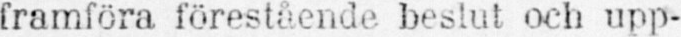framföra förestående bestut och upp-
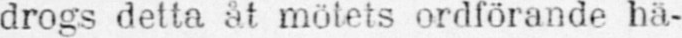drogs detta åt mötets ordförande hä-
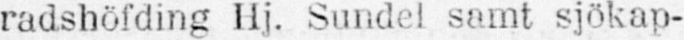radshöfding Hj, Sundel samt sjökap-
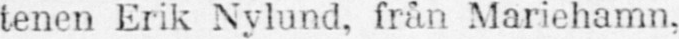tenen Erik Nylund, från Mariehamn,
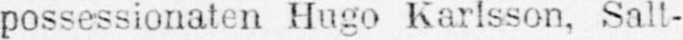possessionaten Hugo Karlsson, Salt-
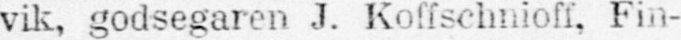vik, godsegaren J. Koffschnioff, Fin-
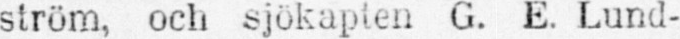ström, och sjökapten G. E. Lund-
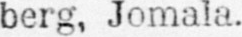berg, Jomala.
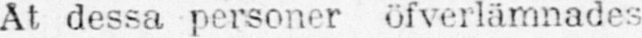Åt dessa personer öfverlämnades
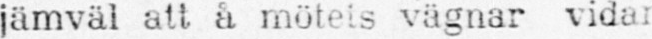jämväl att å mötets vägnar vidare
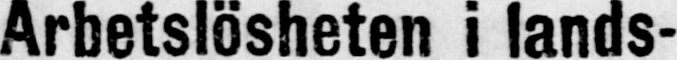Arbetslösheten i lands-
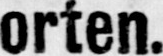orten.
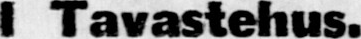I Tavastehus.
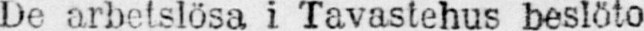De arbetslösa i Tavastehus beslöto
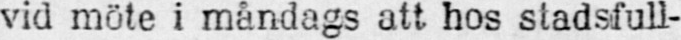vid möte i måndags att hos stadsfull-
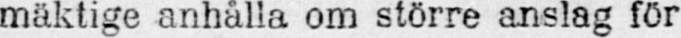mäktige anhålla om större anslag för
